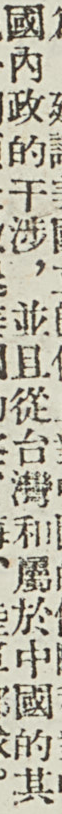國內政的干涉，並且從台灣和屬於中國的其
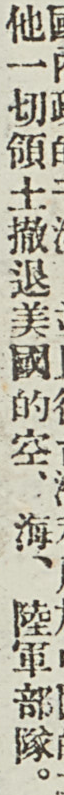他一切領土撤退美國的空、海、陸軍部隊。
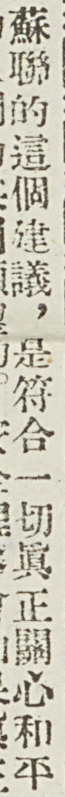蘇聯的這個建議，是符合一切眞正關心和平
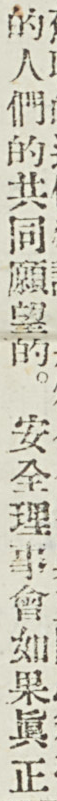的人民的共同願望的。安全理事會如果眞正
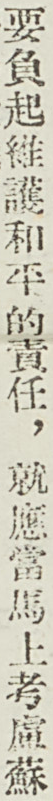要負起維護和平的責任，就應當馬上考慮蘇
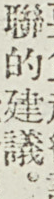聯的建議。
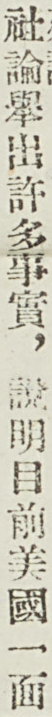社論舉出許多事實，說明目前美國一面
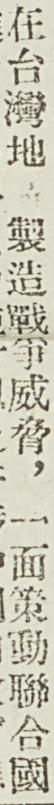在台灣地區製造戰爭威脅，一面策動聯合國
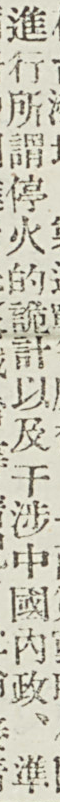進行所謂停火的詭計以及干涉中國內政、準
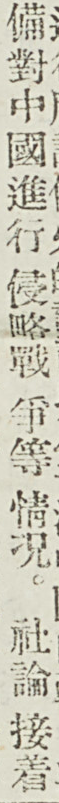備對中國進行侵略戰爭等情況。社論接着
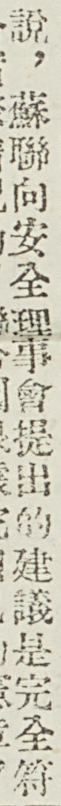說，蘇聯向安全理事會提出的建議是完全符
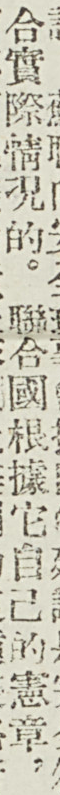合實際情況的。聯合國根據它自己的憲章，
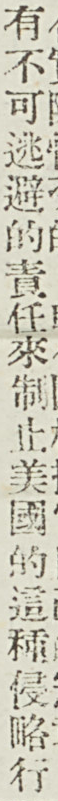有不可逃避的責任來制止美國的這種侵略行
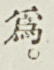爲。
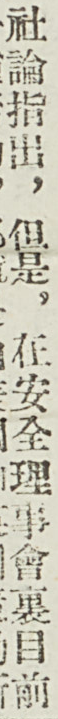社論指出，但是，在安全理事會裏目前
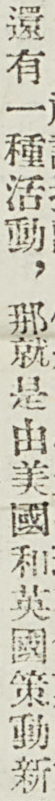還有一種活動，那就是由美國和英國策動新
